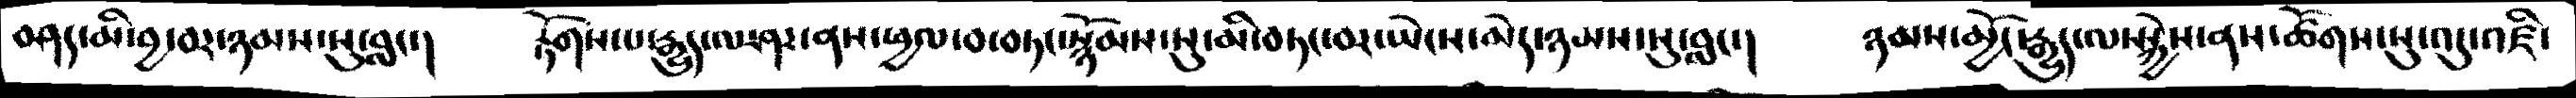བཤད་མི་བྱ་བར་ཉམས་སུ་བླང་།  རྟོགས་པ་རྒྱུད་ལ་ཤར་ནས་ཕྱལ་བ་བཏང་སྙོམས་སུ་མི་བཏག་བར་ཡེངས་མེད་ཉམས་སུ་བླང་།   ཉམས་མྱོང་རྒྱུད་ལ་སྐྱེས་ནས་ཚོགས་སུ་འདུ་འཛི་
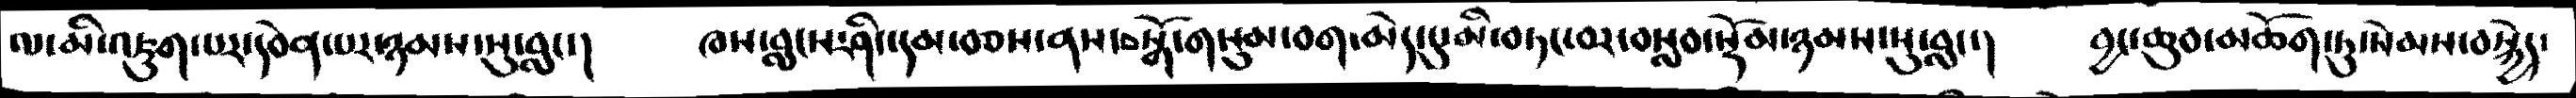ལ་མི་འཇུག་པར་དབེན་པར་ཉམས་སུ་བླང་།   ཁས་བླང་ཤིང་དམ་བཅས་ནས་བསྒོ་གསུམ་བག་ངམེད་དུ་མི་བཏང་བར་བསླབ་སྡོམ་ཉམས་སུ་བླང་།  བྱང་ཆུབ་མཆོག་ཏུ་སེམས་བསྐྱེད་
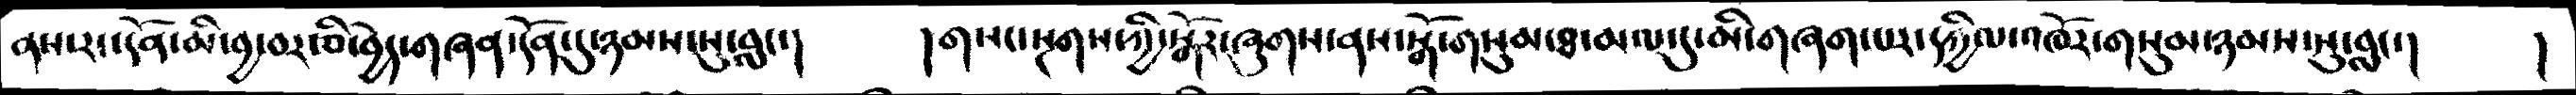ནས་རང་དོན་མི་བྱ་བར་ཅི་བྱེད་གཞན་དོན་དུ་ཉམས་སུ་བླང་།  །གསང་སྔགས་ཀྱི་སྒོར་ཞུགས་ནས་སྒོ་གསུམ་ཐ་མལ་དུ་མི་གཞན་པར་དཀྱིལ་འཁོར་གསུམ་ཉམས་སུ་བླང་།   །
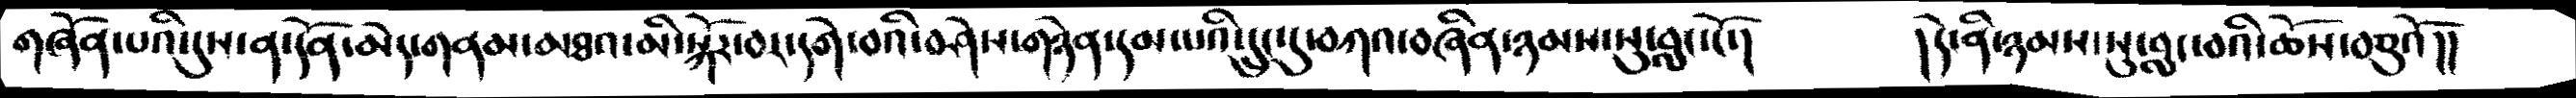གཞོན་པའི་དུས་ན་དོན་མེད་གནམ་མཐའ་མི་སྐོར་བར་དགེ་བའི་བཤེས་གཉེན་དམ་པའི་དྲུང་དུ་བཀའ་བཞིན་ཉམས་སུ་བླང་ངོ་།  །དེ་ནི་ཉམས་སུ་བླང་བའི་ཆོས་བཅུའོ།།
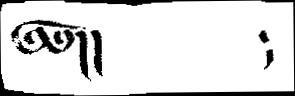༄༅།།        ༴
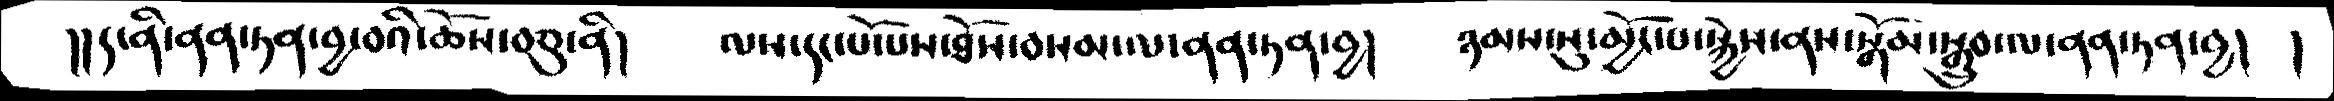།།ད་ནི་ནན་ཏན་བྱ་བའི་ཆོས་བཅུ་ནི།  ལས་དང་པོ་པས་ཐོས་བསམ་ལ་ནན་ཏན་བྱ།  ཉམས་སུ་མྱོང་པ་སྐྱེས་ནས་སྒོམ་སྒྲུབ་ལ་ནན་ཏན་བྱ།  །
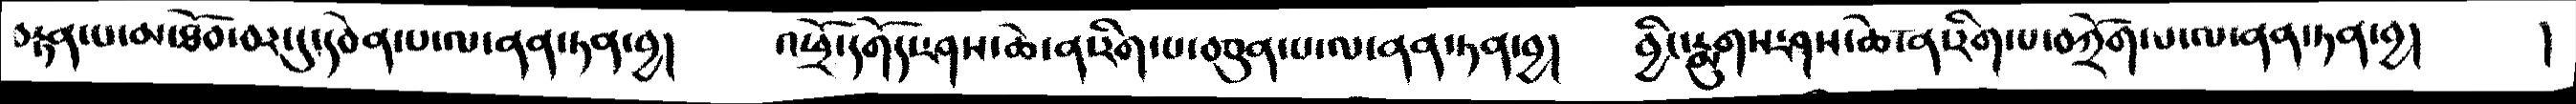བརྟན་པ་མ་ཐོབ་བར་དུ་དབེན་པ་ལ་ནན་ཏན་བྱ། འཕྲོ་དགོད་ཤས་ཆེ་ན་རིག་པ་བཅུན་པ་ལ་ནན་ཏན་བྱ།  བྱིང་རྨུགས་ཤེས་ཆེ་ན་རིག་པ་བཀྲོག་པ་ལ་ནན་ཏན་བྱ།   །
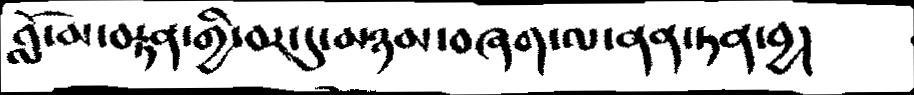བློ་མ་བརྟན་གྱི་བར་དུ་མཉམ་བཞག་ལ་ནན་ཏན་བྱ།
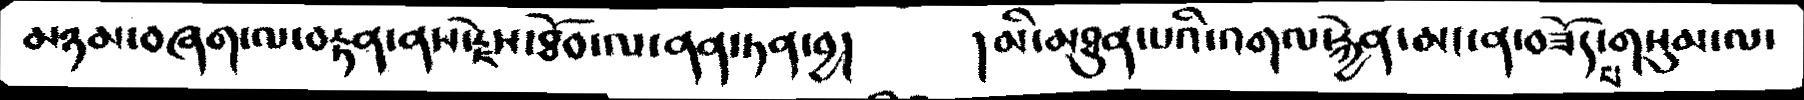མཉམ་བཞགྷ་ལ་བརྟན་ནས་རྗེས་ཐོབ་ལ་ནན་ཏན་བྱ།  །མི་མཐུན་པའི་འགལ་རྐྱེན་མང་ན་བཟོད་པ་གསུམ་ལ་
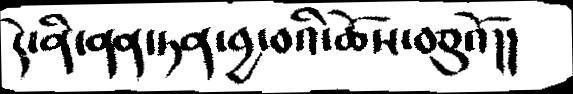དེ་ནི་ནན་ཏན་བྱ་བའི་ཆོས་བཅུའོ།།
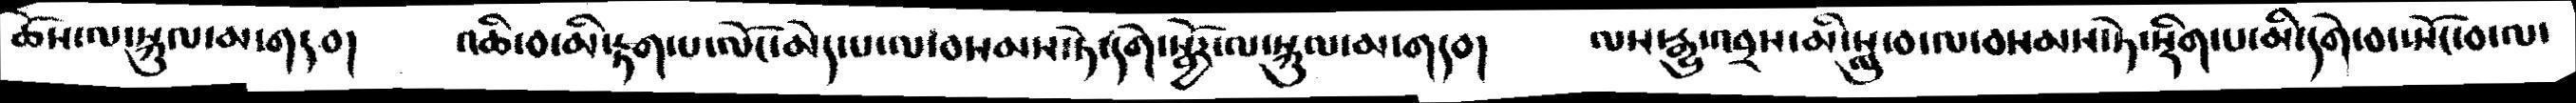ཆོས་ལ་སྐུལ་མ་གདབ།    འཆི་བ་མི་རྟག་པ་ལོང་མེད་པ་ལ་བསམས་ཏེ་དགེ་སྦྱོར་ལ་སྐུལ་མ་གདབ།     ལས་རྒྱུ་འབྲས་མི་སླུ་བ་ལ་བསམས་ཏེ་སྡིག་པ་མི་དགེ་བ་སྤོང་བལ་
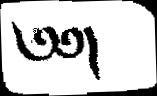༅༅།
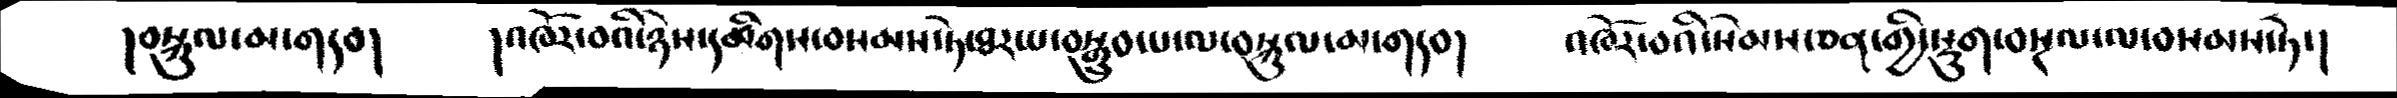།བསྐུལ་མ་གདབ།   །འཁོར་བའི་ཉེས་དམིགས་བསམས་ཏེ་ཐར་པ་བསྒྲུབ་པ་ལ་བསྐུལ་མ་གདབ།     འཁོར་བའི་སེམས་ཅན་གྱི་སྡུག་བསྔལ་ལ་བསམས་ཏེ་།
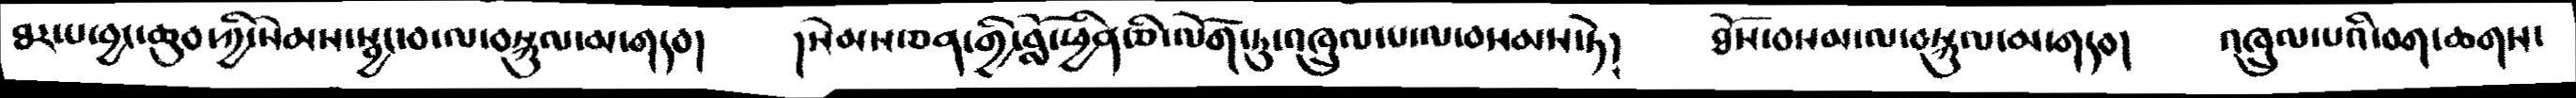ཐར་པ་བྱང་ཆུབ་ཀྱི་སེམས་སྦྱང་བ་ལ་བསྐུལ་མ་གདབ།  །སེམས་ཅན་གྱི་བློ་ཕྱིན་ཅི་ལོག་ཏུ་འཁྲུལ་པ་ལ་བསམས་ཏེ།  ཐོས་བསམ་ལ་བསྐུལ་མ་གདབ།  འཁྲུལ་པའི་བག་ཆགས་
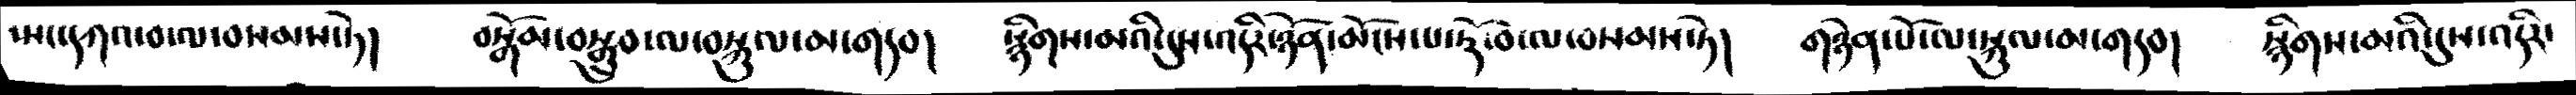སྤང་དཀའ་བ་ལ་བསམས་ཏེ།  བསྒོམ་བསྒྲུབ་ལ་བསྐུལ་མ་གདབ།  སྙིགས་མའི་དུས་འདིར་ཉོན་མོངས་པ་རྟོ་བ་ལ་བསམས་ཏེ།  གཉེན་པོ་ལ་སྐུལ་མ་གདབ།  སྙིགས་མའི་དུས་འདིར་
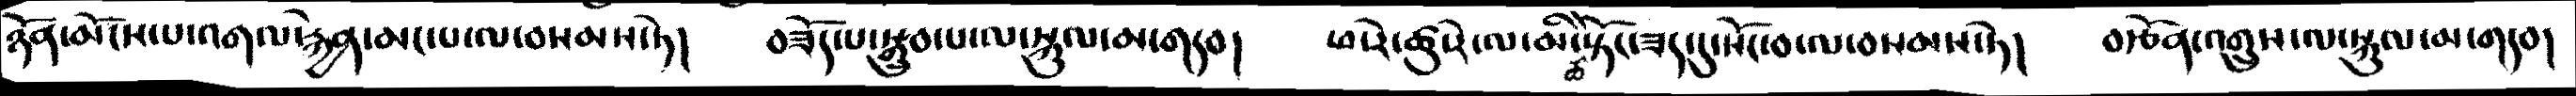ཉོན་མོངས་པ་འགལ་རྐྱེན་མང་པ་ལ་བསམས་ཏེ།  བཟོད་པ་སྒྲུབ་པ་ལ་སྐུལ་མ་གདབ། ཕ་རེ་ཚུ་རེ་ལ་མི་ཚེ་སྟོང་ཟད་དུ་སོང་བ་ལ་བསམས་ཏེ།  བརྩོན་འགྲུས་ལ་སྐུལ་མ་གདབ།
